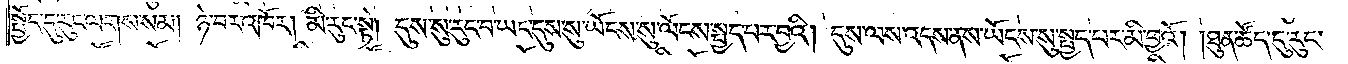སྤྱོད་དུ་རུང་ལགས་སམ། ཉེ་བར་འཁོར། མི་རུང་སྟེ། དུས་སུ་རུང་བ་ཡང་དུས་སུ་ཡོངས་སུ་ལོངས་སྤྱད་པར་བྱའི། དུས་ལས་འདས་ནས་ཡོངས་སུ་སྤྱད་པར་མི་བྱའོ། །ཐུན་ཚོད་དུ་རུང་
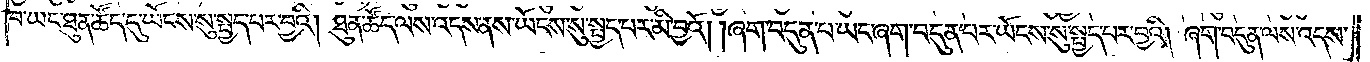བ་ཡང་ཐུན་ཚོད་དུ་ཡོངས་སུ་སྤྱད་པར་བྱའི། ཐུན་ཚོད་ལས་འདས་ནས་ཡོངས་སུ་སྤྱད་པར་མི་བྱའོ། །ཞག་བདུན་པ་ཡང་ཞག་བདུན་པར་ཡོངས་སུ་སྤྱད་པར་བྱའོ། ཞག་བདུན་ལས་འདས་
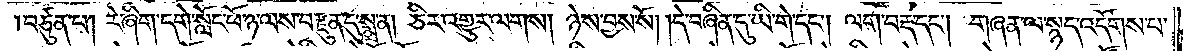།བཙུན་པ། རེ་ཞིག་དགེ་སློང་ཕོ་ཉ་ལས་བརྫུན་དུ་སྨྲ་ན། ཅིར་འགྱུར་ལགས། ཉེས་བྱས་སོ། །དེ་བཞིན་དུ་ཡི་གེ་དང༌། ལག་བརྡ་དང༌། གཞན་ལ་སྙད་འདོགས་པ་
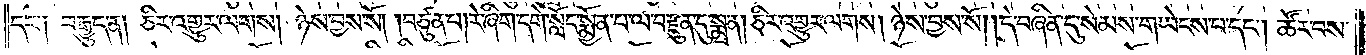དང་༑ བརྒྱུད་ན། ཅིར་འགྱུར་ལགས། ཉེས་བྱས་སོ། །བཙུན་པ། རེ་ཞིག་དགེ་སློང་སྨྱོན་པ་ལ་བརྫུན་དུ་སྨྲ་ན། ཅིར་འགྱུར་ལགས། ཉེས་བྱས་སོ། །དེ་བཞིན་དུ་སེམས་གཡེངས་པ་དང༌། ཚོར་བས་
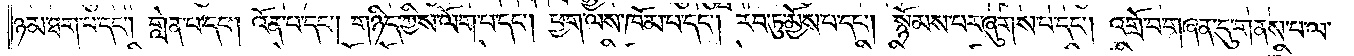ཉམ་ཐག་པ་དང༌། གླེན་པ་དང༌། འོན་པ་དང༌། གཉིད་ཀྱིས་ལོག་པ་དང༌། ཕྱག་ལས་ཁོམ་པ་དང༌། རབ་ཏུ་མྱོས་པ་དང༌། སྙོམས་པར་ཞུགས་པ་དང༌། འགྲོ་བ་གཞན་དུ་གནས་པ་ལ་
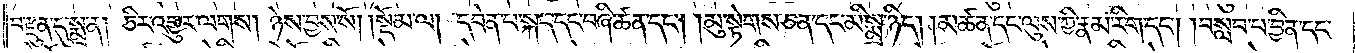བརྫུན་དུ་སྨྲ་ན། ཅིར་འགྱུར་ལགས། ཉེས་བྱས་སོ།    །སྡོམ་ལ། དབེན་པ་སྐད་དང་བཞི་ཚན་དང༌། །མུ་སྟེགས་ཅན་དང་མི་སྨྲ་ཉིད། །མཚན་དང་ལུས་ཀྱི་རྣམ་རིག་དང༌། །བསླབ་པ་བྱིན་དང་
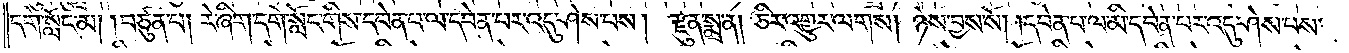དགེ་སློང་མ། །བཙུན་པ། རེ་ཞིག་དགེ་སློང་གིས་དབེན་པ་ལ་དབེན་པར་འདུ་ཤེས་པས། རྫུན་སྨྲ་ན། ཅིར་འགྱུར་ལགས། ཉེས་བྱས་སོ། །མི་དབེན་པ་ལ་མི་དབེན་པར་འདུ་ཤེས་པས་
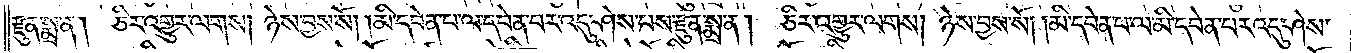རྫུན་སྨྲ་ན། ཅིར་འགྱུར་ལགས། ཉེས་བྱས་སོ། །མི་དབེན་པ་ལ་དབེན་པར་འདུ་ཤེས་པས་རྫུན་སྨྲ་ན། ཅིར་འགྱུར་ལགས། ཉེས་བྱས་སོ། །མི་དབེན་པ་ལ་མི་དབེན་པར་འདུ་ཤེས་
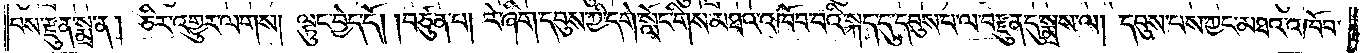པས་རྫུན་སྨྲ་ན། ཅིར་འགྱུར་ལགས། ལྟུང་བྱེད་དོ། །བཙུན་པ། རེ་ཞིག་དབུས་ཀྱི་དགེ་སློང་གིས་མཐའ་འཁོབ་པའི་སྐད་དུ་དབུས་པ་ལ་བརྫུན་དུ་སྨྲས་ལ། དབུས་པས་ཀྱང་མཐའ་འཁོབ་
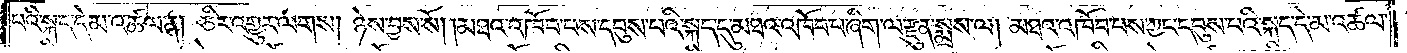པའི་སྐད་དེ་མ་འཚལ་ན། ཅིར་འགྱུར་ལགས། ཉེས་བྱས་སོ། །མཐའ་འཁོབ་པས་དབུས་པའི་སྐད་དུ་མཐའ་འཁོབ་པ་ཞིག་ལ་རྫུན་སྨྲས་ལ། མཐའ་འཁོབ་པས་ཀྱང་དབུས་པའི་སྐད་དེ་མ་འཚལ་
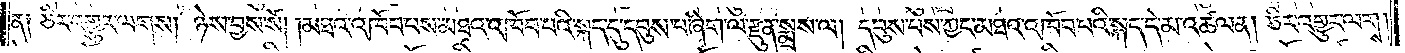ན༑ ཅིར་འགྱུར་ལགས། ཉེས་བྱས་སོ། །མཐའ་འཁོབ་པས་མཐའ་འཁོབ་པའི་སྐད་དུ་དབུས་པ་ཞིག་ལ་རྫུན་སྨྲས་ལ། དབུས་པས་ཀྱང་མཐའ་འཁོབ་པའི་སྐད་དེ་མ་འཚལ་ན། ཅིར་འགྱུར་ལགས།
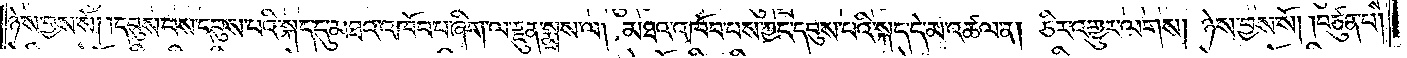ཉེས་བྱས་སོ། །དབུས་པས་དབུས་པའི་སྐད་དུ་མཐའ་འཁོབ་པ་ཞིག་ལ་རྫུན་སྨྲས་ལ། མཐའ་འཁོབ་པས་ཀྱང་དབུས་པའི་སྐད་དེ་མ་འཚལ་ན། ཅིར་འགྱུར་ལགས། ཉེས་བྱས་སོ། །བཙུན་པ།
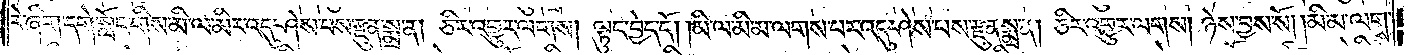རེ་ཞིག་དགེ་སློང་གིས་མི་ལ་མིར་འདུ་ཤེས་པས་རྫུན་སྨྲ་ན། ཅིར་འགྱུར་ལགས། ལྟུང་བྱེད་དོ། །མི་ལ་མི་མ་ལགས་པར་འདུ་ཤེས་པས་རྫུན་སྨྲ་ན། ཅིར་འགྱུར་ལགས། ཉེས་བྱས་སོ། །མི་མ་ལགས་
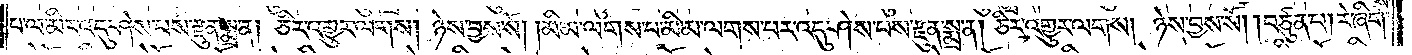པ་ལ་མིར་འདུ་ཤེས་པས་རྫུན་སྨྲ་ན། ཅིར་འགྱུར་ལགས། ཉེས་བྱས་སོ། །མི་མ་ལགས་པ་མི་མ་ལགས་པར་འདུ་ཤེས་པས་རྫུན་སྨྲ་ན། ཅིར་འགྱུར་ལགས། ཉེས་བྱས་སོ། །བཙུན་པ། རེ་ཞིག་
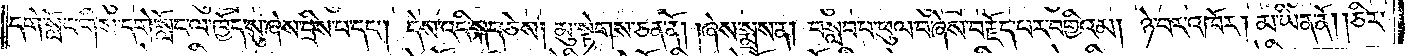དགེ་སློང་གིས་དགེ་སློང་ལ་ཁྱོད་སུ་ཞེས་དྲིས་པ་དང༌། དེས་འདི་སྐད་ཅེས། མུ་སྟེགས་ཅན་ནོ། །ཞེས་སྨྲས་ན། བསླབ་པ་ཕུལ་བ་ཞེས་བརྗོད་པར་བགྱིའམ། ཉེ་བར་འཁོར། མ་ཡིན་ནོ། །ཅིར་
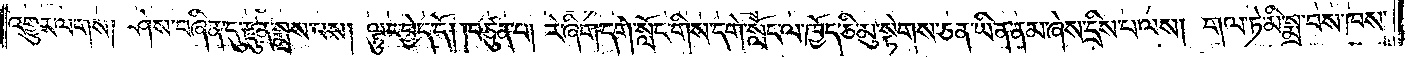འགྱུར་ལགས། ཤེས་བཞིན་དུ་རྫུན་སྨྲས་པས། ལྟུང་བྱེད་དོ། །བཙུན་པ། རེ་ཞིག་དགེ་སློང་གིས་དགེ་སློང་ལ་ཁྱོད་ཅི་མུ་སྟེགས་ཅན་ཡིན་ནམ་ཞེས་དྲིས་པ་ལས། གལ་ཏེ་མི་སྨྲ་བས་ཁས་
